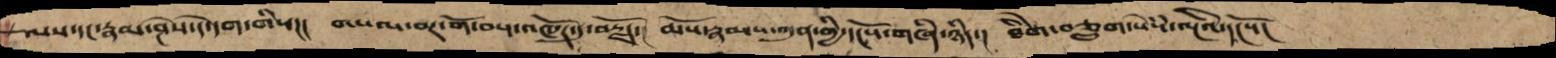ལས་དང་རྣམ་ཤེས་དེ་དག་གིས་།།།  གསལ་བར་གོ་བས་འཁོར་དུ་བརྗོད་།  ཆོས་རྣམས་ཀུན་གྱི་དངོས་གཞི་ཉིད་།  ཐིགེ་བཅྲུག་སེསཾ་ལྔའི་དངོས།
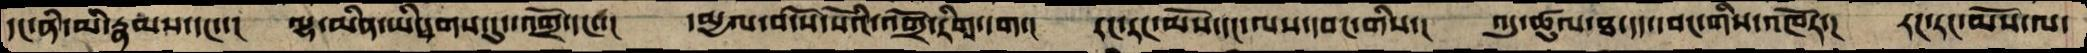དང་ནི་མི་རྣམས་དང་་།  ལྷ་མིན་ཡི་དྭགས་དུད་འགྲོ་དང་་། དམྱལ་བ་སོ་སོའི་འགྲོ་རིགས་དག་། རང་རང་མོས་དང་ལས་དབང་གིས་། འདུ་ཚུལ་ཐ་དད་དབང་གིས་འཁོར་། རང་རང་མོས་ལ་
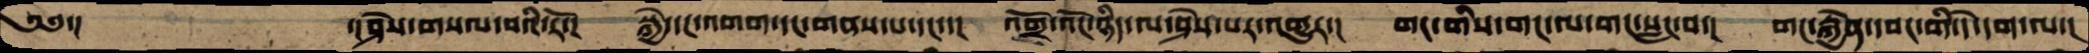༄༅་།       ་།ཤེས་གསལ་བའི་རོ་།  སྐྱེ་དང་འགག་དང་གནས་པ་དང་་།  འགྲོ་འོང་ཉིད་ལ་ཤེས་པར་འགྱུར་།  གང་གིས་གང་ལ་གང་སླང་བ་།  གང་རྐྱེན་དབང་གི་དེ་དག་ལ་།
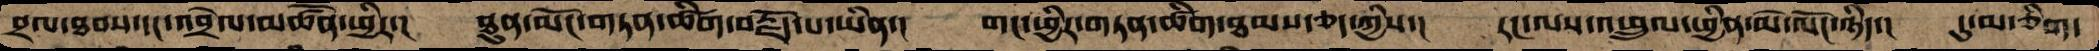བྲལ་ཐབས་དང་འབྲེལ་མཚོན་ཕྱིར་།  ཐུན་མོང་གཏན་ཚིག་བརྗོད་པ་ཡིན་།  གང་ཕྱིར་གཏན་ཚིག་ཐམས་ཅད་ཀྱིས་།  རང་ལས་འཕྲུལ་ཕྱིན་མེ་ལོང་ཉིད་།  དུ་མ་ཅིག་
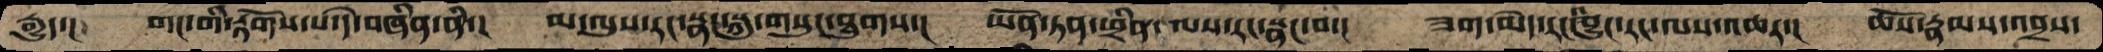རྒྱུད་།  གང་གི་རྟོགས་པ་དེ་བཞིན་ནི་།  མ་ལུས་རང་སྣང་སྐུ་གསུང་ཐུགས་།  ཡོན་ཏན་ཕྲིན་ལས་རང་སྣང་བ་།  ཟག་མེད་རང་བྱུང་རང་ལས་འཆར་།   ཆོས་རྣམས་འབྲས་
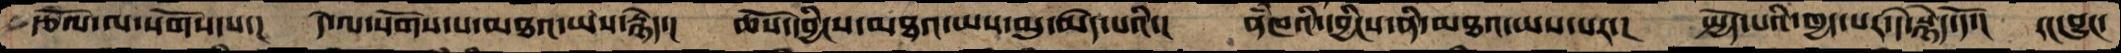རྩོལ་ལ་སོགས་པ་། དེ་ལ་སོགས་པ་མཐའ་ཡས་རྙེད་།  ཆོས་དབྱིངས་མཐའ་ཡས་མུ་མེད་པའི་། ནཾཁའི་དབྱིངས་ནི་མཐའ་ཡས་པར་། སྤྱོད་པའི་ཁྱད་པར་དེ་སྙེད་དོ་།  རང་བྱུང་
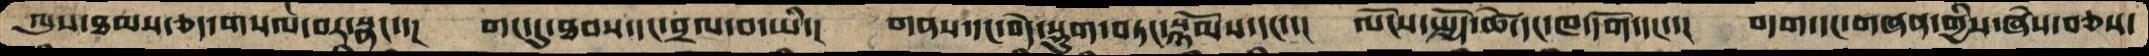ལུས་ཐམས་ཅད་གསལ་བར་སྣང་་།  གང་དུ་ཐབས་དང་བྲལ་བ་ཡི་།  གནས་དང་བདེ་སྡུག་བཏང་སྙོམས་དང་་།  ལོངས་སྤྱོད་ཚེ་དང་ཁ་དོག་དང་་།  བདག་དང་གཞན་གྱིས་ཞེས་བཅས་
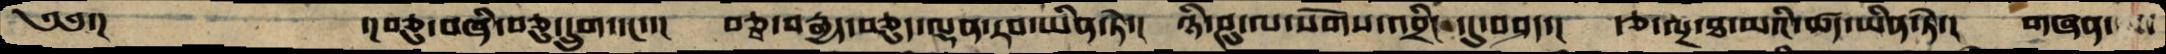༄༅་།    ་།བཅུ་བཞི་བཅུ་དྲུག་དང་་།  བཅྭ་བརྒྱད་བཅུད་ལྡན་རབ་ཡིན་ཏེ་།  ཉི་ཤུ་ལ་སོགས་འབྲིང་དུ་བཤད་།  རྩ་ལྔ་ཐ་མའི་ཚད་ཡིན་ཏེ་།  གཞན་
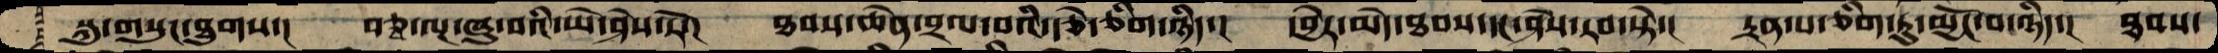སྐུ་གསུང་ཐུགས་།  བཅྭ་ལྔ་ཞུ་བའི་ཡེ་ཤེས་ཏེ་།  ཐབས་ཆེན་བྲལ་བའི་རྩེ་ཅིག་ཉིད་།  དབྱེར་མེད་ཐབས་དང་ཤེས་རབ་སྟེ་།  དྲན་པ་ཅིག་ཏུ་མྱོང་བ་ཉིད་།  ཐབས་
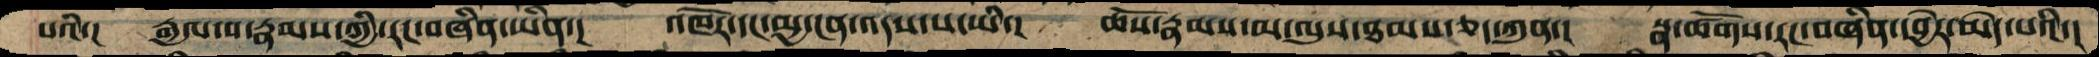པའི་།  རྒྱལ་པ་རྣམས་ཀྱི་རང་བཞིན་ཡིན་།  འཁོར་དང་མྱ་ངན་འདས་པ་ཡི་།  ཆོས་རྣམས་མ་ལུས་ཐམས་ཅད་ཀུན་།  སྣ་ཚོགས་རང་བཞིན་དབྱེར་མེད་པའི་།
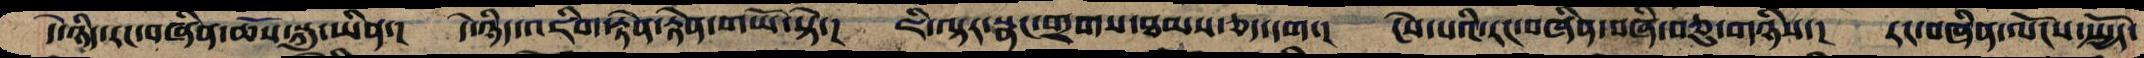དེ་ཉིད་རང་བཞིན་ཆོས་སྐུ་ཡིན་།   དེ་ཉིད་འཇིག་རྟེན་རྟེན་གཡོ་སྟེ་།  ཇི་ལྟར་སྣང་གྲགས་ཐམས་ཅད་དག་།  ངེས་པའི་རང་བཞིན་བཞི་བཅུ་གཉིས་།  རང་བཞིན་ལོངས་སྤྱོད་
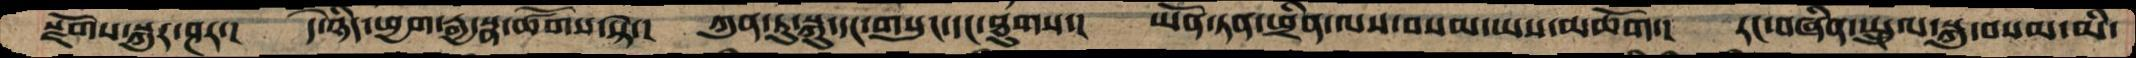སྫོགས་སྐུར་ཤར་།   དེ་ཉིད་ཕྱག་རྒྱ་སྣ་ཚོགས་སྟེ་།  ཀུན་ཏུ་སྐུ་དང་གསུང་དང་ཐུགས་།  ཡོན་ཏན་ཕྲིན་ལས་བསམ་ཡས་མཆོག་།  རང་བཞིན་སྤྲུལ་སྐུ་བསམ་མི་
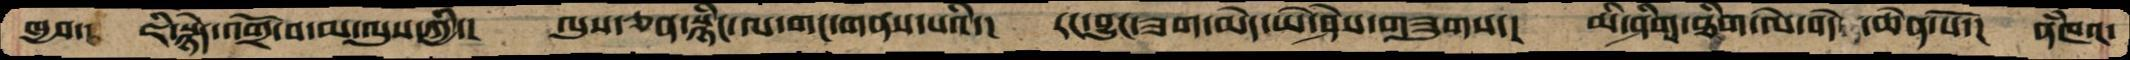ཁྱབ་།  ཇི་སྙེད་འགྲོ་བ་མ་ལུས་ཀྱི་།  ལུས་ཅན་སྙིང་ལ་གང་གནས་པའི་།  རང་བྱུང་ཟག་མེད་ཡེ་ཤེས་གཟུགས་།  མི་ཤིག་ཐིག་ལེ་བདེ་ཆེན་པོ་།  ནཾཁའ་
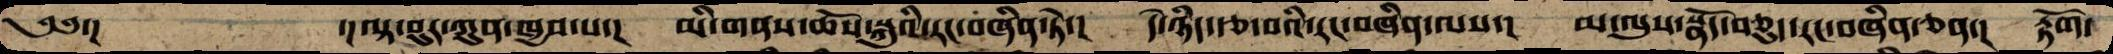༄༅་།          ་།ལྟ་བུར་ཀུན་ཁྱབ་པ་།   མི་གནས་ཆོས་སྐུའི་རང་བཞིན་ཏེ་།  དེ་ཉིད་རྩ་བའི་རང་བཞིན་ལས་།  མ་ལུས་སྣོད་བཅུད་རང་བཞིན་ཅན་།  རྟོག་
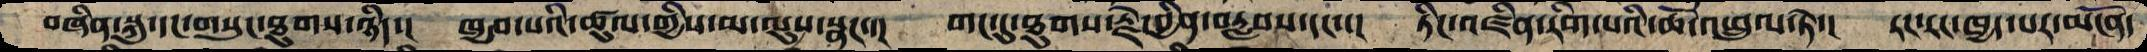བཞིན་སྐུ་དང་གསུང་ཐུགས་ཉིད་།  ཁྱབ་པའི་ཚུལ་གྱིས་མ་ལུས་སྣང་་།  གང་དུ་ཐུགས་རྗེ་བྱིན་བརླབས་དང་་།  ཏིང་འཛིན་རིག་པའི་ཆོ་འཕྲུལ་ཏེ་།  རང་རང་ཁྱད་པར་མངོན་
